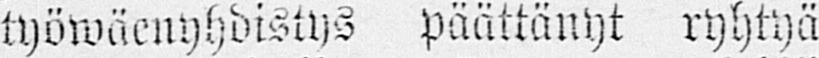työwäenyhdistys päättänyt ryhtyä
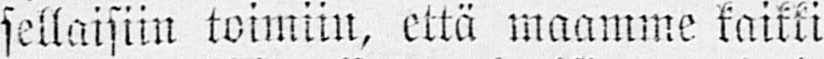sellaisiin toimiin, että maamme kaikki
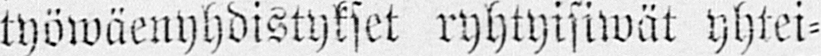työwäenyhdistykset ryhtyisiwät yhtei-
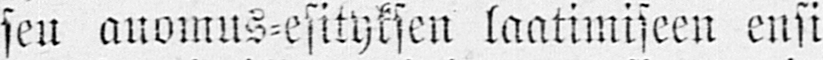sen auomus-esityksen laatimiseen ensi
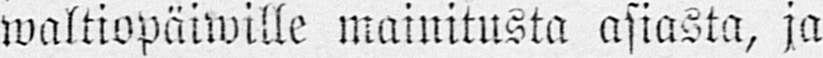waltiopäiwille mainitusta asiasta, ja
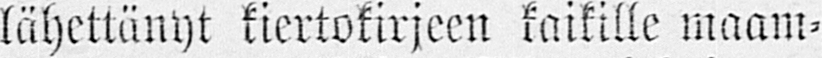lähettänyt kiertokirjeen kaikille maam-
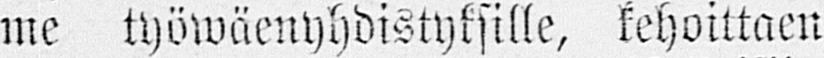me työwäenyhdistyksille, kehoittaen
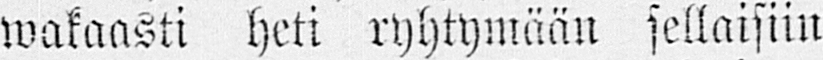wakaasti heti ryhtymään sellaisiin
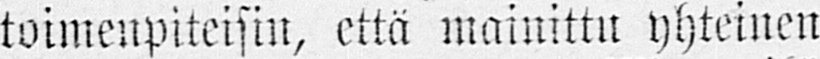toimenpiteisin, että mainittu yhteinen
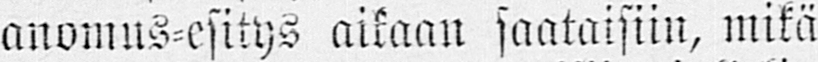anomus-esitys aikaan saataisiin, mikä
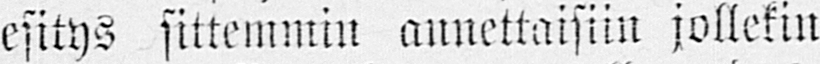esitys sittemmin annettaisiin jollekin
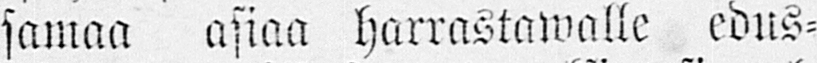samaa asiaa harrastawalle edus-
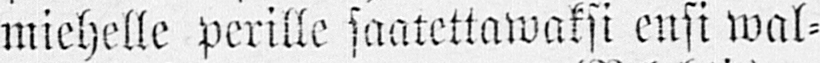miehelle perille saatettawaksi ensi wal-
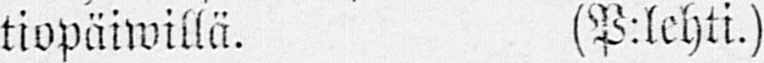tiopäiwillä. (P:lehti.)
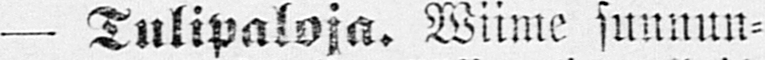— Tulipaloja. Wiime sunnun-
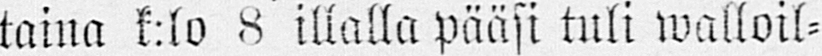taina k:lo 8 illalla pääsi tuli walloil-
